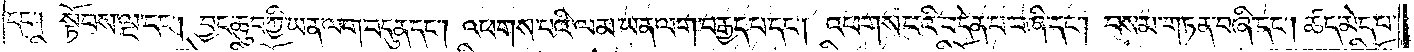དང༌། སྟོབས་ལྔ་དང༌། བྱང་ཆུབ་ཀྱི་ཡན་ལག་བདུན་དང༌། འཕགས་པའི་ལམ་ཡན་ལག་བརྒྱད་པ་དང༌། འཕགས་པའི་བདེན་པ་བཞི་དང༌། བསམ་གཏན་བཞི་དང༌། ཚད་མེད་པ་
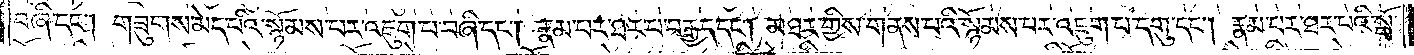བཞི་དང༌། གཟུགས་མེད་པའི་སྙོམས་པར་འཇུག་པ་བཞི་དང༌། རྣམ་པར་ཐར་པ་བརྒྱད་དང༌། མཐར་གྱིས་གནས་པའི་སྙོམས་པར་འཇུག་པ་དགུ་དང༌། རྣམ་པར་ཐར་པའི་སྒོ་
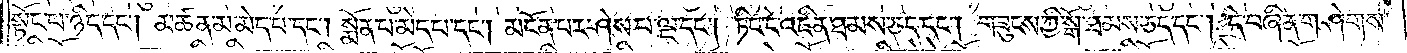སྟོང་པ་ཉིད་དང༌། མཚན་མ་མེད་པ་དང༌། སྨོན་པ་མེད་པ་དང༌། མངོན་པར་ཤེས་པ་ལྔ་དང༌། ཏིང་ངེ་འཛིན་ཐམས་ཅད་དང༌། གཟུངས་ཀྱི་སྒོ་ཐམས་ཅད་དང༌། དེ་བཞིན་གཤེགས་
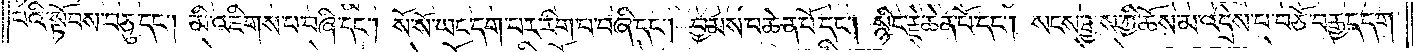པའི་སྟོབས་བཅུ་དང༌། མི་འཇིགས་པ་བཞི་དང༌། སོ་སོ་ཡང་དག་པར་རིག་པ་བཞི་དང༌། བྱམས་པ་ཆེན་པོ་དང༌། སྙིང་རྗེ་ཆེན་པོ་དང༌། སངས་རྒྱས་ཀྱི་ཆོས་མ་འདྲེས་པ་བཅོ་བརྒྱད་དག་
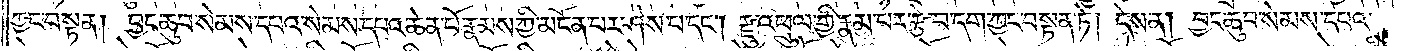ཀྱང་བསྟན། བྱང་ཆུབ་སེམས་དཔའ་སེམས་དཔའ་ཆེན་པོ་རྣམས་ཀྱི་མངོན་པར་ཤེས་པ་དང༌། རྫུ་འཕྲུལ་གྱིས་རྣམ་པར་རྩེ་བ་དག་ཀྱང་བསྟན་ཏེ། དེས་ན། བྱང་ཆུབ་སེམས་དཔའ་
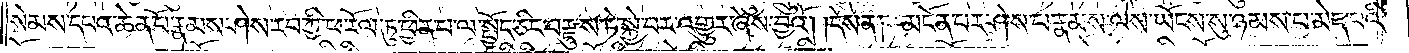སེམས་དཔའ་ཆེན་པོ་རྣམས་ཤེས་རབ་ཀྱི་ཕ་རོལ་ཏུ་ཕྱིན་པ་ལ་སྤྱོད་ཅིང་བརྫུས་ཏེ་སྐྱེ་བར་འགྱུར་ཞེས་བྱའོ། །དེས་ན། མངོན་པར་ཤེས་པ་རྣམས་ལས་ཡོངས་སུ་ཉམས་པ་མེད་པའི་
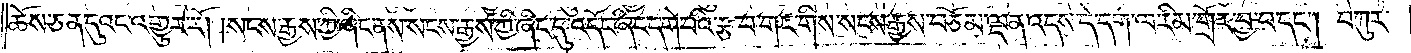ཆོས་ཅན་དུའང་འགྱུར་རོ། །སངས་རྒྱས་ཀྱི་ཞིང་ནས་སངས་རྒྱས་ཀྱི་ཞིང་དུ་འདོང་ཞིང་དགེ་བའི་རྩ་བ་གང་གིས་སངས་རྒྱས་བཅོམ་ལྡན་འདས་དེ་དག་ལ་རིམ་གྲོར་བྱ་བ་དང༌། བཀུར་
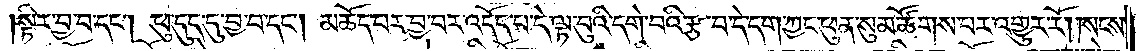སྟིར་བྱ་བ་དང༌། ཕུ་དུད་དུ་བྱ་བ་དང༌། མཆོད་པར་བྱ་བར་འདོད་པ་དེ་ལྟ་བུའི་དགེ་བའི་རྩ་བ་དེ་དག་ཀྱང་ཕུན་སུམ་ཚོགས་པར་འགྱུར་རོ། །སངས་
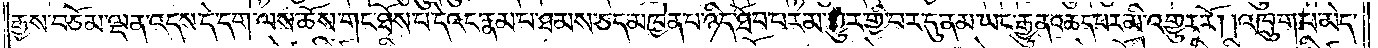རྒྱས་བཅོམ་ལྡན་འདས་དེ་དག་ལས་ཆོས་གང་ཐོས་པ་དེའང་རྣམ་པ་ཐམས་ཅད་མཁྱེན་པ་ཉིད་ཐོབ་པར་མ་གྱུར་གྱི་བར་དུ་ནམ་ཡང་རྒྱུན་ཆད་པར་མི་འགྱུར་རོ། །འཁྲུག་པ་མེད་
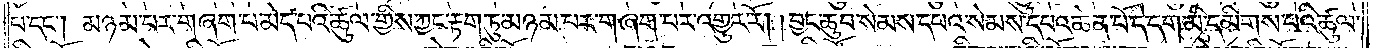པ་དང༌། མཉམ་པར་གཞག་པ་མེད་པའི་ཚུལ་གྱིས་ཀྱང་རྟག་ཏུ་མཉམ་པར་གཞག་པར་འགྱུར་རོ། །བྱང་ཆུབ་སེམས་དཔའ་སེམས་དཔའ་ཆེན་པོ་དེ་དག་མི་དམིགས་པའི་ཚུལ་
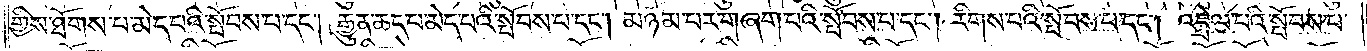གྱིས་ཐོགས་པ་མེད་པའི་སྤོབས་པ་དང༌། རྒྱུན་ཆད་པ་མེད་པའི་སྤོབས་པ་དང༌། མཉམ་པར་གཞག་པའི་སྤོབས་པ་དང༌། རིགས་པའི་སྤོབས་པ་དང༌། འབྲེལ་པའི་སྤོབས་པ་
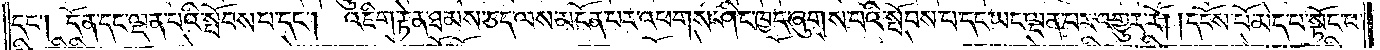དང༌། །དོན་དང་ལྡན་པའི་སྤོབས་པ་དང༌། འཇིག་རྟེན་ཐམས་ཅད་ལས་མངོན་པར་འཕགས་ཤིང་ཁྱད་ཞུགས་པའི་སྤོབས་པ་དང་ཡང་ལྡན་པར་འགྱུར་རོ། །དངོས་པོ་མེད་པ་སྟོང་པ་
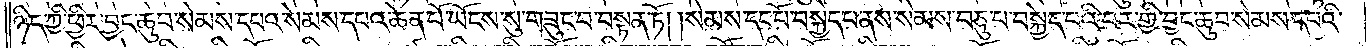ཉིད་ཀྱི་ཕྱིར་བྱང་ཆུབ་སེམས་དཔའ་སེམས་དཔའ་ཆེན་པོ་ཡོངས་སུ་བཟུང་བ་བསྟན་ཏོ། །སེམས་དང་པོ་བསྐྱེད་པ་ནས་སེམས་བཅུ་པ་བསྐྱེད་པའི་བར་གྱི་བྱང་ཆུབ་སེམས་དཔའི་
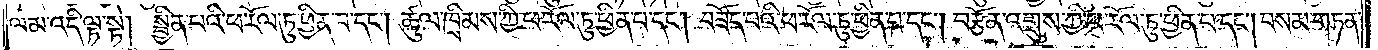ལམ་འདི་ལྟ་སྟེ། སྦྱིན་བའི་ཕ་རོལ་ཏུ་ཕྱིན་པ་དང༌། ཚུལ་ཁྲིམས་ཀྱི་ཕ་རོལ་ཏུ་ཕྱིན་པ་དང༌། བཟོད་པའི་ཕ་རོལ་ཏུ་ཕྱིན་པ་དང༌། བརྩོན་འགྲུས་ཀྱི་ཕ་རོལ་ཏུ་ཕྱིན་པ་དང༌། བསམ་གཏན་
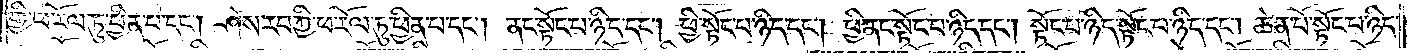གྱི་ཕ་རོལ་ཏུ་ཕྱིན་པ་དང༌། ཤེས་རབ་ཀྱི་ཕ་རོལ་ཏུ་ཕྱིན་པ་དང༌། ནང་སྟོང་པ་ཉིད་དང༌། ཕྱི་སྟོང་པ་ཉིད་དང༌། ཕྱི་ནང་སྟོང་པ་ཉིད་དང༌། ཆེན་པོ་སྟོང་པ་ཉིད་
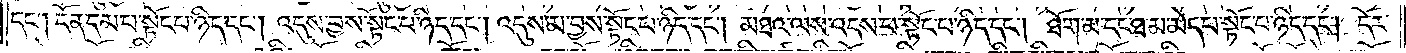དང༌། དོན་དམ་པ་སྟོང་པ་ཉིད་དང༌། འདུས་བྱས་སྟོང་པ་ཉིད་དང༌། འདུས་མ་བྱས་སྟོང་པ་ཉིད་དང༌། མཐའ་ལས་འདས་པ་སྟང་པ་ཉིད་དང༌། ཐོག་མ་དང་ཐ་མ་མེད་པ་སྟོང་པ་ཉིད་དང༌། དོར་
